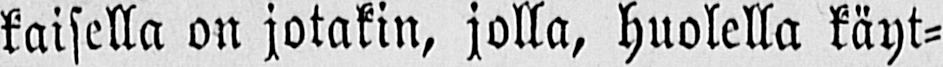täisellä on jotakin, jolla, huolella käyt-
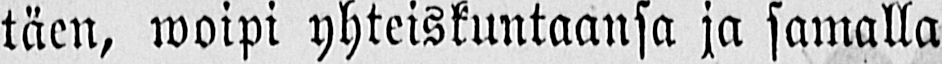täen, woipi yhteiskuntaansa ja samalla
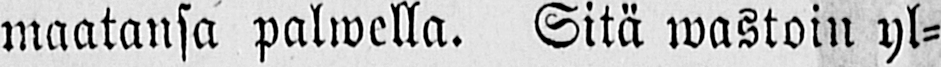maatansa palwella. Sitä wastoin yl-
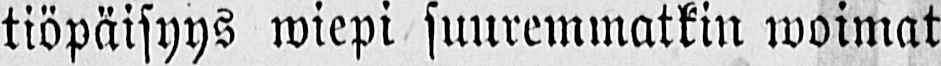tiöpäisyys wiepi suuremmatkin woimat
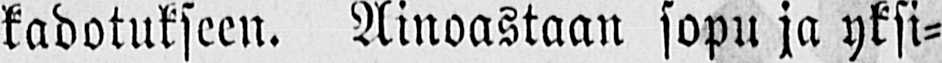kadotukseen. Ainoastaan sopu ja yksi-
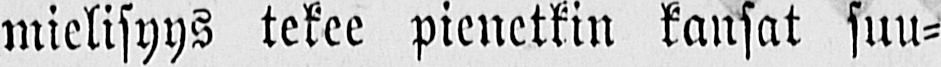mielisyys tekee pienetkin kansat suu-
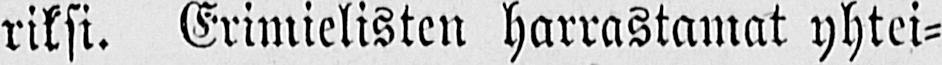riksi. Erimielisten harrastamat yhtei-
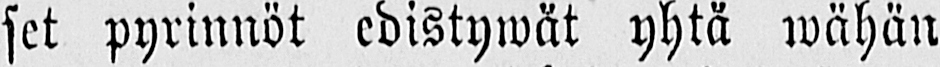set pyrinnöt edistywät yhtä wähän
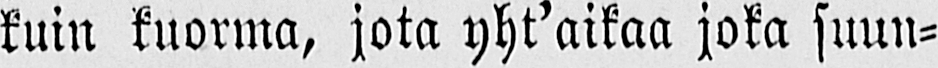kuin kuorma, jota yht'aikaa joka suun-
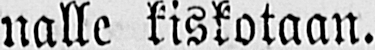nalle kiskotaan.
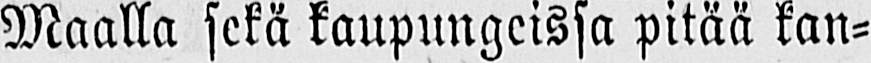Maalla sekä kaupungeissa pitää kan-
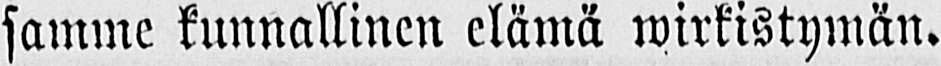samme kunnallinen elämä wirkistymän.
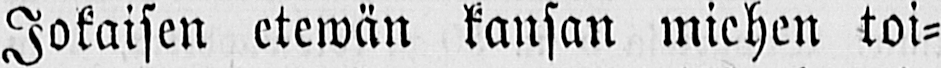Jokaisen etewän kansan miehen toi-
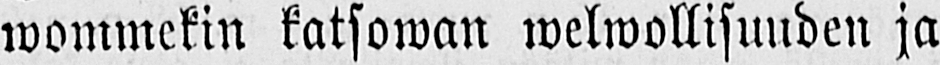wommekin katsowan welwollisuuden ja
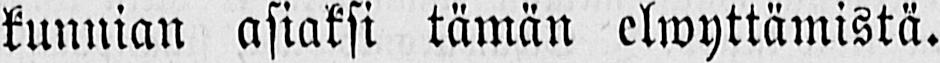kunnian asiaksi tämän elwyttämistä.
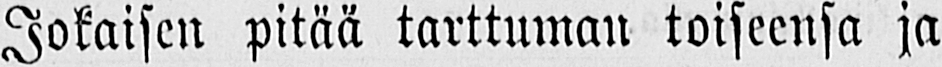Jokaisen pitää tarttuman toiseensa ja
